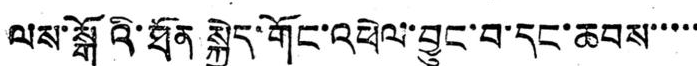ལས་སྒོའི་ཐོན སྐྱེད་གོང་འཕེལ་བྱུང་བ་དང་ཆབས་་་་་
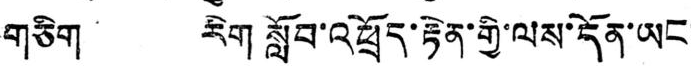གཅིག རིག སློབ་འཕྲོད་རྟེན་གྱི་ལས་དོན་ཡང་
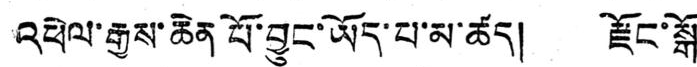འཕེལ་རྒྱས་ཆེན པོ་བྱུང་ཡོད་པ་མ་ཚད། རྫོང་སྒོ་
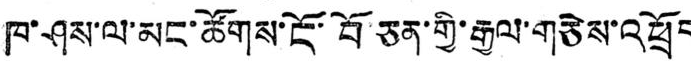ཁ་ཤས་ལ་མང་ཚོགས་ངོ་བོ་ཅན་གྱི་རྒྱལ་གཅེས་འཕྲོད
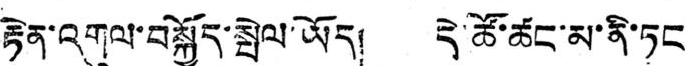རྟེན་འགུལ་བསྐྱོད་སྤེལ་ཡོད། དེ་ཚོ་ཚང་མ་ནི་ཏང་
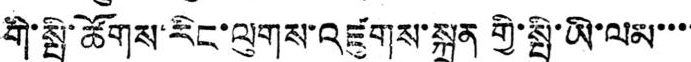གི་སྤྱི་ཚགས་རིང་ལུགས་འཛུགས་སྐྲུན གྱི་སྤྱི་ཡི་ལམ་་་་
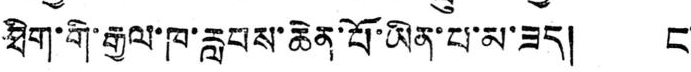ཐིག་གི་རྒྱལ་ཁ་རླབས་ཆེན་པོ་ཡིན་པ་མ་ཟད། ང་
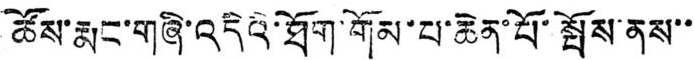ཚོས་རྨང་གཞི་འདིའི་ཐོག་གོམ་པ་ཆེན་པོ་སྤོས་ནས་་་
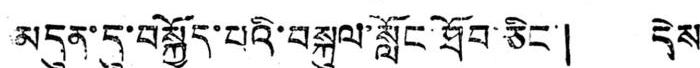མདུན་དུ་བསྐྱོད་པའི་བསྐུལ་སློང་ཐོབ་ཅིང་། དེས་
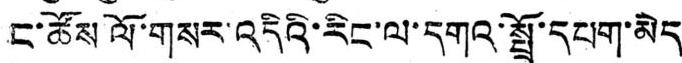ང་ཚོས ལོ་གསར་འདིའི་རིང་ལ་དགའ་སྤྲོ་དཔག་མེད་་
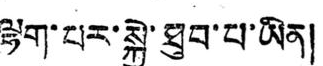ལྷག་པར་སྐྱེ་ཐུབ་པ་ཡིན།
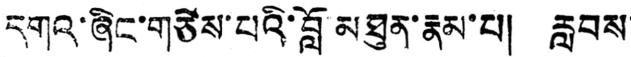དགའ་ཞིང་གཙེས་པའི་བློ་མཐུན་རྣམ་པ། རླབས་
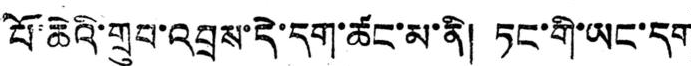པོ་ཆེའི་གྲུབ་འབྲས་དེ་དག་ཚང་མ་ནི། ཏང་གི་ཡང་དག
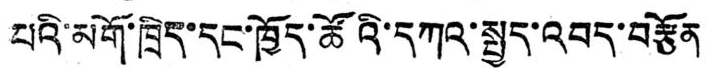པའི་མགོ་ཁྲིད་དང་ཁྱོད་ཚོའི་དཀའ་སྤྱད་འབད་བརྩོན
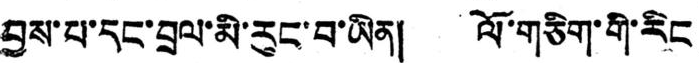བྱས་པ་དང་བྲལ་མི་རུང་བ་ཡིན། ལོ་གཅིག་གི་རིང
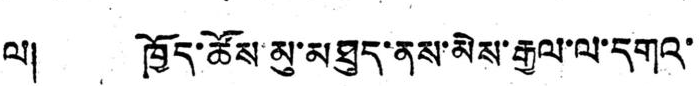ལ། ཁྱོད་ཚོས་མུ་མཐུད་ནས་མེས་རྒྱལ་ལ་དགའ་
